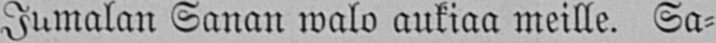Jumalan Sanan walo aukiaa meille. Sa-
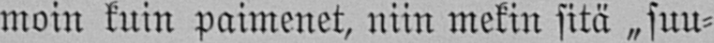moin kuin paimenet, niin mekin sitä „suu-
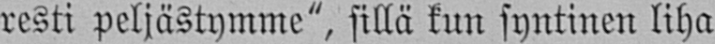resti peljästymme", sillä kun syntinen liha
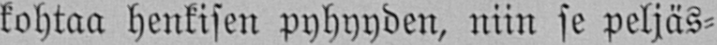kohtaa henkisen pyhyyden, niin se peljäs-
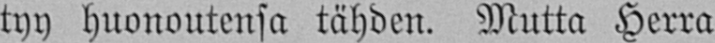tyy huonoutensa tähden. Mutta Herra
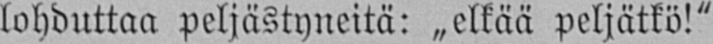lohduttaa peljästyneitä: „elkää peljätkö!"
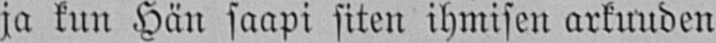ja kun Hän saapi siten ihmisen arkuuden
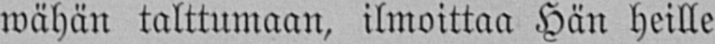wähän talttumaan, ilmoittaa Hän heille
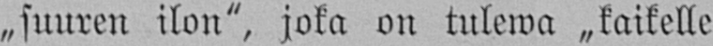„suuren ilon", joka on tulewa „kaikelle
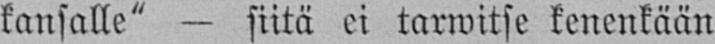kansalle" — siitä ei tarwitse kenenkään
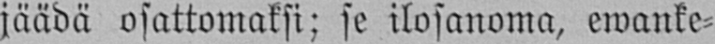jäädä osattomaksi; se ilosanoma, ewanke-
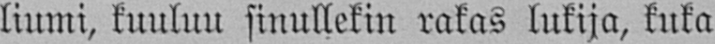liumi, kuuluu sinullekin rakas lukija, kuka
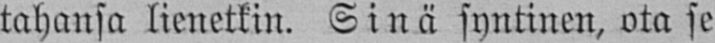tahansa lienetkin. Sinä syntinen, ota se
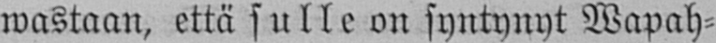wastaan, että sulle on syntynyt Wapah-
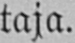taja.
